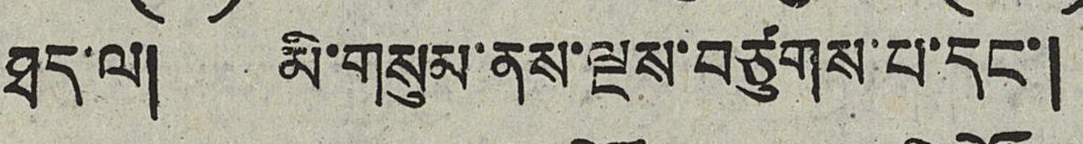ཐད་ལ། མི་གསུམ་ནས་ལྔས་བཙུགས་པ་དང་།
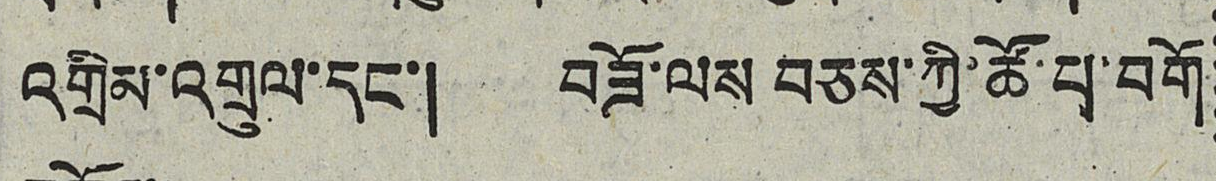འགྲིམ་འགྲུལ་དང་། བཟོ་ལས བཅས་ཀྱི་ཚོ་པ་བགོ
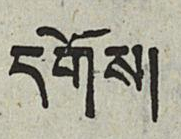དགོས།
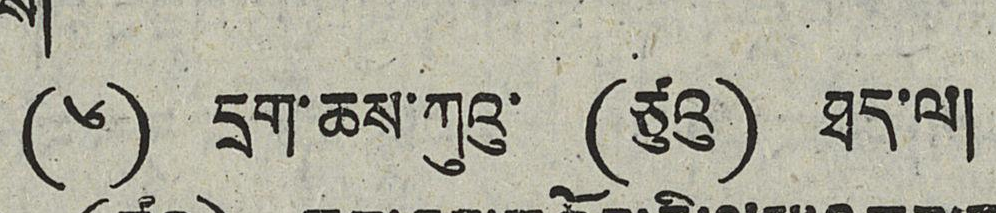(༦) དྲག་ཆས་ཀུའུ་ (ཙུའུ) ཐད་ལ།
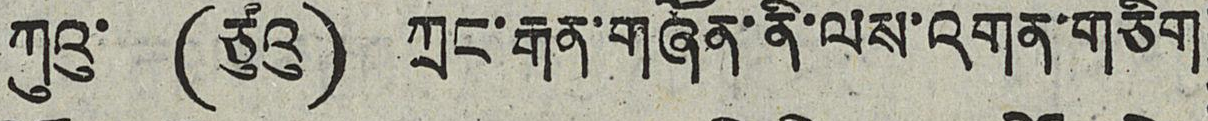ཀུའུ་ (ཙུའུ) ཀྲང་རྒན་གཞོན་ནི་ལས་འགན་གཅིག
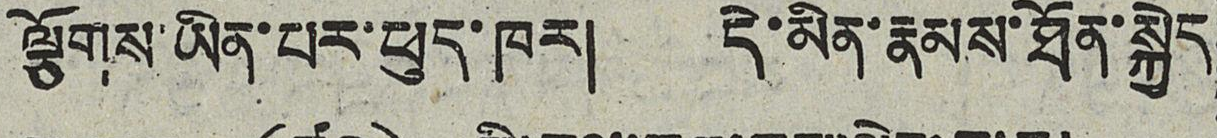ལྕོགས་ཡིན་པར་ཕུད་ཁར། དེ་མིན་རྣམས་ཐོན་སྐྱེད
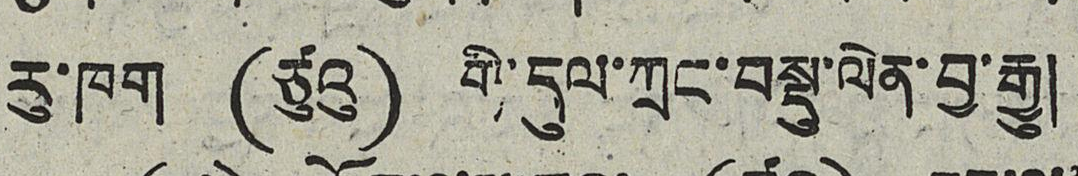རུ་ཁག (ཙུའུ) གི་དུལ་ཀྲང་བསྡུ་ལེན་བྱ་རྒྱུ།
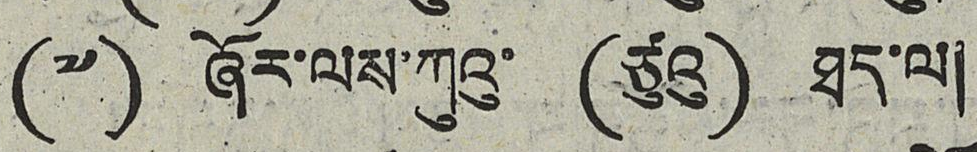(༧) ཞོར་ལས་ཀུའུ་ (ཙུའུ) ཐད་ལ་
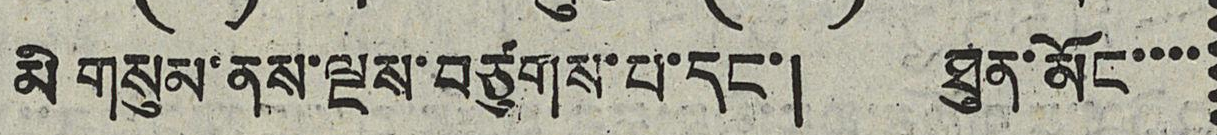མི གསུམ་ནས་ལྔས་བཙུགས་པ་དང་། ཐུན་མོང་་་་
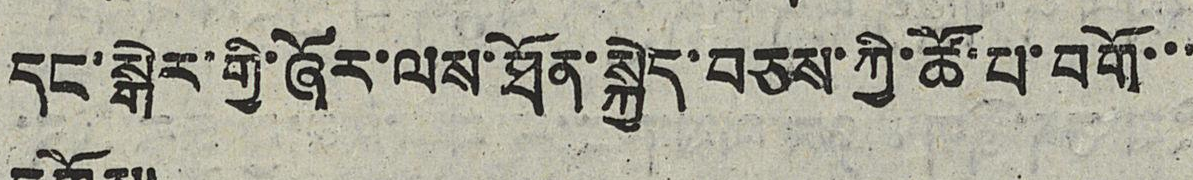དང་སྒེར་གྱི་ཞོར་ལས་ཐོན་སྐྱེད་བཅས་ཀྱི་ཚོ་པ་བགོ་་་
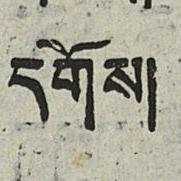དགོས།
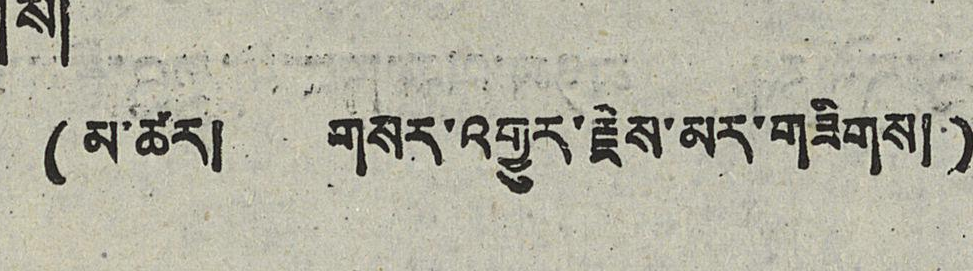(མ་ཚར། གསར་འགྱུར་རྗེས་མར་གཟིགས།)
